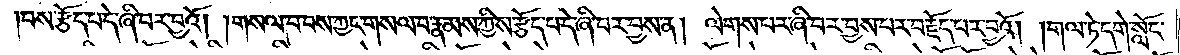།བས་རྩོད་པ་དེ་ཞི་བར་བྱའོ། །གསལ་བ་བས་ཀྱང་གསལ་བ་རྣམས་ཀྱིས་རྩོད་པ་དེ་ཞི་བར་བྱས་ན། ལེགས་པར་ཞི་བར་བྱས་པར་བརྗོད་པར་བྱའོ། །གལ་ཏེ་དགེ་སློང་
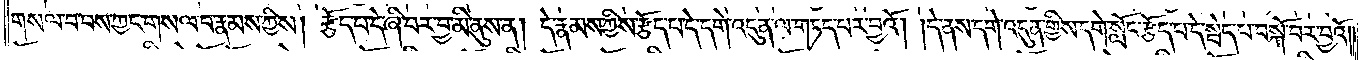གསལ་བ་བས་ཀྱང་གསལ་བ་རྣམས་ཀྱིས། རྩོད་པ་དེ་ཞི་བར་བྱ་མི་ནུས་ན། དེ་རྣམས་ཀྱིས་རྩོད་པ་དེ་དགེ་འདུན་ལ་གཏད་པར་བྱའོ། །དེ་ནས་དགེ་འདུན་གྱིས་དགེ་སློང་རྩོད་པ་དེ་སྦེད་པ་བསྐོ་བར་བྱའོ། །
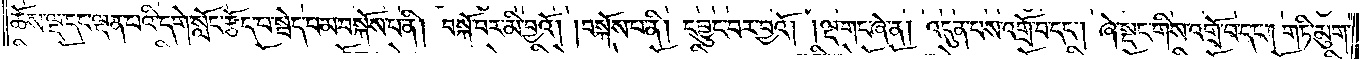ཆོས་ལྔ་དང་ལྡན་པའི་དགེ་སློང་རྩོད་པ་སྦེད་པ་མ་བསྐོས་པ་ནི། བསྐོ་བར་མི་བྱའོ། །བསྐོས་པ་ནི། དབྱུང་བར་བྱའོ། །ལྔ་གང་ཞེ་ན། འདུན་པས་འགྲོ་བ་དང༌། ཞེ་སྡང་གིས་འགྲོ་བ་དང༌། གཏི་མུག་
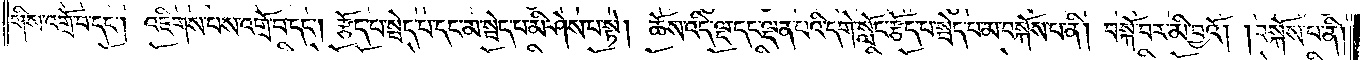གིས་འགྲོ་བ་དང༌། འཇིགས་པས་འགྲོ་བ་དང༌། རྩོད་པ་སྦེད་པ་དང་མ་སྦེད་པ་མི་ཤེས་པ་སྟེ། ཆོས་འདི་ལྔ་དང་ལྡན་པའི་དགེ་སློང་རྩོད་པ་སྦེད་པ་མ་བསྐོས་པ་ནི། བསྐོ་བར་མི་བྱའོ། །བསྐོས་པ་ནི།
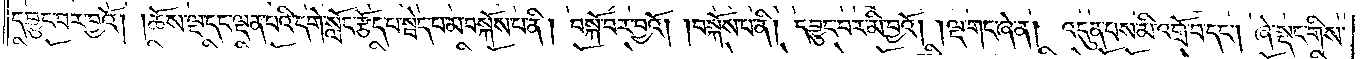དབྱུང་བར་བྱའོ། །ཆོས་ལྔ་དང་ལྡན་པའི་དགེ་སློང་རྩོད་པ་སྦེད་པ་མ་བསྐོས་པ་ནི། བསྐོ་བར་བྱའོ། །བསྐོས་པ་ནི། དབྱུང་བར་མི་བྱའོ། །ལྔ་གང་ཞེ་ན། འདུན་པས་མི་འགྲོ་བ་དང༌། ཞེ་སྡང་གིས་
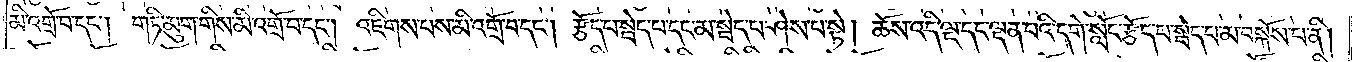མི་འགྲོ་བ་དང༌། གཏི་མུག་གིས་མི་འགྲོ་བ་དང༌། འཇིགས་པས་མི་འགྲོ་བ་དང༌། རྩོད་པ་སྦེད་པ་དང་མ་སྦེད་པ་ཤེས་པ་སྟེ། ཆོས་འདི་ལྔ་དང་ལྡན་པའི་དགེ་སློང་རྩོད་པ་སྦེད་པ་མ་བསྐོས་པ་ནི།
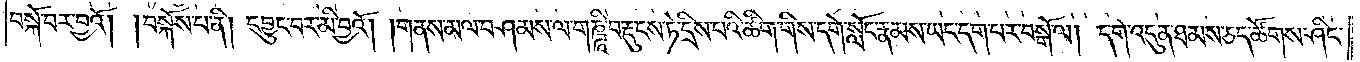བསྐོ་བར་བྱའོ། །བསྐོས་པ་ནི། དབྱུང་བར་མི་བྱའོ། །གནས་མལ་བཤམས་ལ་གཎྜཱི་བརྡུངས་ཏེ་དྲིས་པའི་ཚིག་གིས་དགེ་སློང་རྣམས་ཡང་དག་པར་བསྒོ་ལ། དགེ་འདུན་ཐམས་ཅད་ཚོགས་ཤིང་
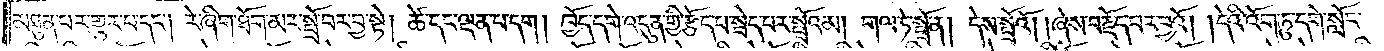མཐུན་པར་གྱུར་པ་དང༌། རེ་ཞིག་ཐོག་མར་སྤྲོ་བར་བྱ་སྟེ། ཚེ་དང་ལྡན་པ་དག །ཁྱོད་དགེ་འདུན་གྱི་རྩོད་པ་སྦེད་པར་སྤྲོའམ། གལ་ཏེ་སྤྲོ་ན། དེས་སྤྲོའོ། །ཞེས་བརྗོད་པར་བྱའོ། །དེའི་འོག་ཏུ་དགེ་སློང་
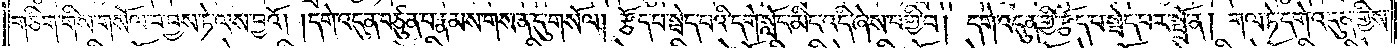གཅིག་གིས་གསོལ་བ་བྱས་ཏེ་ལས་བྱའོ། །དགེ་འདུན་བཙུན་པ་རྣམས་གསན་དུ་གསོལ། རྩོད་པ་སྦེད་པའི་དགེ་སློང་མིང་འདི་ཞེས་བགྱི་བ། དགེ་འདུན་གྱི་རྩོད་པ་སྦེད་པར་སྤྲོ་ན། གལ་ཏེ་དགེ་འདུན་གྱིས་
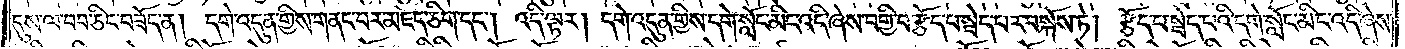དུས་ལ་བབ་ཅིང་བཟོད་ན། དགེ་འདུན་གྱིས་གནང་བར་མཛོད་ཅིག་དང༌། འདི་ལྟར། དགེ་འདུན་གྱིས་དགེ་སློང་མིང་འདི་ཞེས་བགྱི་བ་རྩོད་པ་སྦེད་པར་བསྐོས་ཏེ། རྩོད་པ་སྦེད་པའི་དགེ་སློང་མིང་འདི་ཞེས་
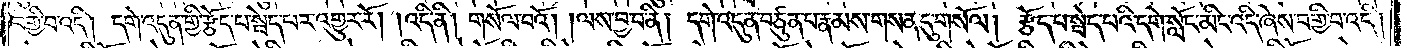བགྱི་བ་འདི། དགེ་འདུན་གྱི་རྩོད་པ་སྦེད་པར་འགྱུར་རོ། །འདི་ནི། གསོལ་བའོ། །ལས་བྱ་བ་ནི། དགེ་འདུན་བཙུན་པ་རྣམས་གསན་དུ་གསོལ། རྩོད་པ་སྦེད་པའི་དགེ་སློང་མིང་འདི་ཞེས་བགྱི་བ་འདི།
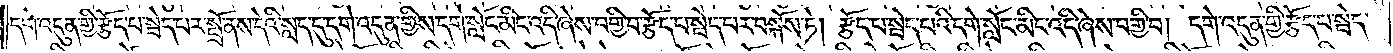དགེ་འདུན་གྱི་རྩོད་པ་སྦེད་པར་སྤྲོ་ནས་དེའི་སླད་དུ་དགེ་འདུན་གྱིས་དགེ་སློང་མིང་འདི་ཞེས་བགྱི་བ་རྩོད་པ་སྦེད་པར་བསྐོས་ཏེ། རྩོད་པ་སྦེད་པའི་དགེ་སློང་མིང་འདི་ཞེས་བགྱི་བ། དགེ་འདུན་གྱི་རྩོད་པ་སྦེད་
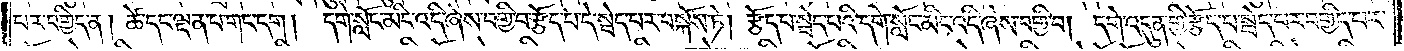པར་བགྱིད་ན། ཚེ་དང་ལྡན་པ་གང་དག །དགེ་སློང་མིང་འདི་ཞེས་བགྱི་བ་རྩོད་པ་དེ་སྦེད་པར་བསྐོས་ཏེ། རྩོད་པ་སྦེད་པའི་དགེ་སློང་མིང་འདི་ཞེས་བགྱི་བ། དགེ་འདུན་གྱི་རྩོད་པ་སྦེད་པར་བགྱིད་པར་
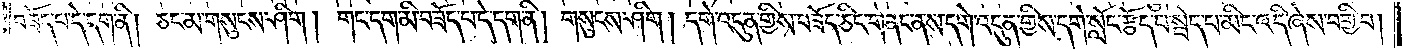བཟོད་པ་དེ་དག་ནི། ཅང་མ་གསུངས་ཤིག །གང་དག་མི་བཟོད་པ་དེ་དག་ནི། གསུངས་ཤིག །དགེ་འདུན་གྱིས་བཟོད་ཅིང་གནང་ནས་དགེ་འདུན་གྱིས་དགེ་སློང་རྩོད་པ་སྦེད་པ་མིང་འདི་ཞེས་བགྱི་བ།
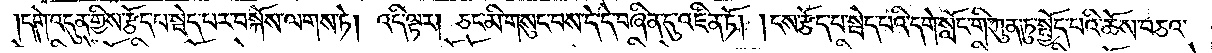དགེ་འདུན་གྱིས་རྩོད་པ་སྦེད་པར་བསྐོས་ལགས་ཏེ། འདི་ལྟར། ཅང་མི་གསུང་བས་དེ་དེ་བཞིན་དུ་འཛིན་ཏོ། །ངས་རྩོད་པ་སྦེད་པའི་དགེ་སློང་གི་ཀུན་ཏུ་སྤྱོད་པའི་ཆོས་བཅའ་
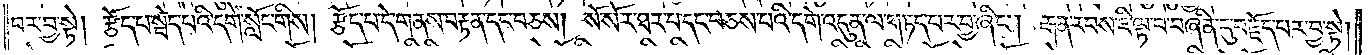བར་བྱ་སྟེ། རྩོད་པ་སྦེད་པའི་དགེ་སློང་གིས། རྩོད་པ་དེ་གནས་བརྟན་དང་བཅས། སོ་སོར་ཐར་པ་དང་བཅས་པའི་དགེ་འདུན་ལ་གཏད་པར་བྱ་ཞིང༌། རྒན་རབས་ཇི་ལྟ་བ་བཞིན་དུ་བརྗོད་པར་བྱ་སྟེ།
